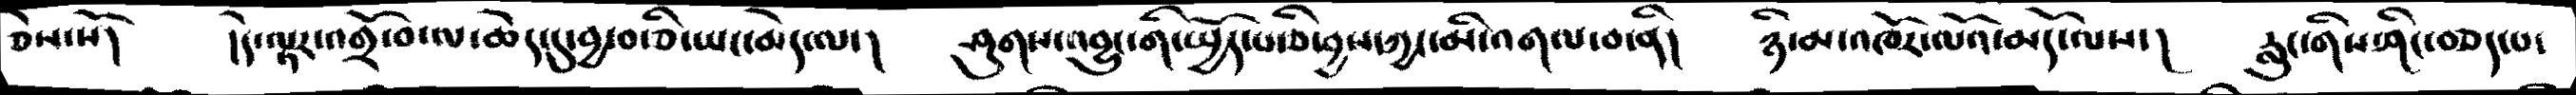ཅེས་སོ།    །དེ་ལྟར་འགྲོ་བ་ལ་ཆེད་བྱ་བ་ཅི་ཡང་མེད་ལ་།   ཤུགས་འབྱུང་གི་སྤྱོད་པ་ཅི་བྱས་ཀྱང་མི་འགལ་བ་ནི།   ཉི་མ་འཁོར་ལོའ་མདོ་ལས་།    རླུང་གིས་ཤིང་བཅད་པ་
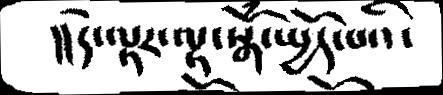།།དེ་ལྟར་ལྟ་སྒོམ་སྤྱོད་པའི་
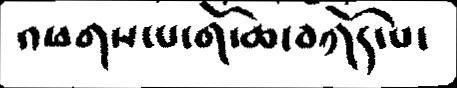འཕགས་པ་གོ་ཆ་བཀོད་པ་
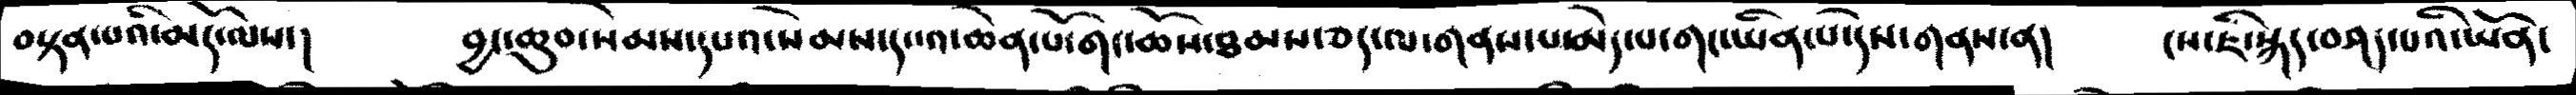བསྟན་པའི་མདོ་ལས་།      བྱང་ཆུབ་སེམས་དཔའ་སེམས་དཔའ་ཆེན་པོ་གང་ཆོས་ཐམས་ཅད་ལ་གནས་པ་མེད་པ་གང་ཡིན་པ་དེས་གནས་ན།    ངས་ཇི་སྐད་བཤད་པའི་ཡོན་
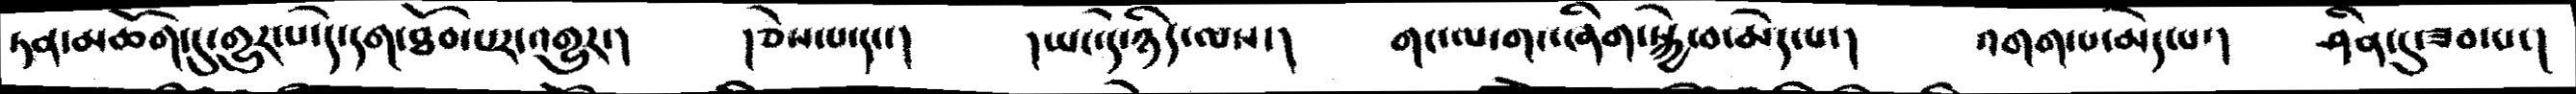ཏན་མཆོག་དུ་གྱུར་པ་དེ་དག་ཐོབ་པར་འགྱུར་།    །ཅེས་པ་དང་།   །ཡང་དེ་ཉིད་ལས་།    གང་ལ་གང་ཞིག་སྐྱེ་བ་མེད་པ་།    འགག་པ་མེད་པ་།   ཤིན་དུ་ཟབ་པ་།
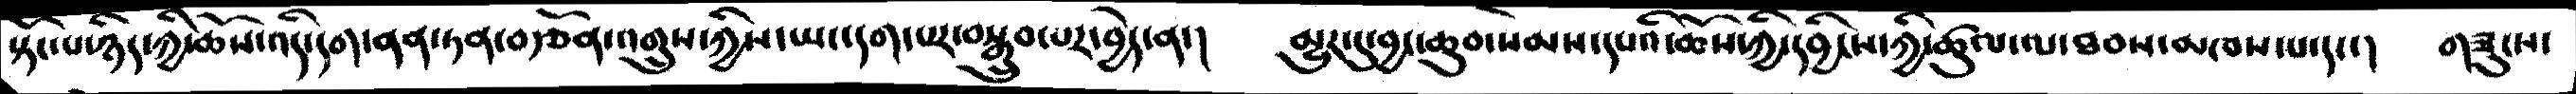སྟོང་པ་ཉིད་ཀྱི་ཆོས་འདི་དག་ནན་ཏན་བརྩོན་འགྲུས་ཀྱིས་ཡང་དག་པར་བསྒྲུབ་པར་བྱེད་ན་།   མྱུར་དུ་བྱང་ཆུབ་སེམས་དཔའི་ཆོས་ཀྱི་དབྱིངས་ཀྱི་ཚུལ་ལ་ཐབས་མཁས་པ་དང་།  གཟུངས་
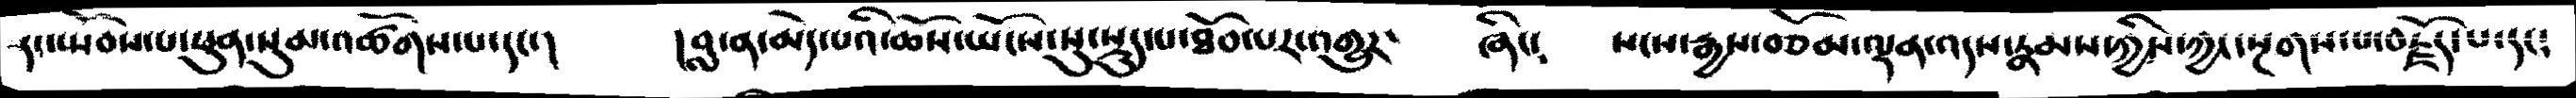དང་སྤོབས་པ་ཕུན་སུམ་འཚོགས་པ་དང་།   །བླ་ན་མེད་པའི་ཆོས་ཡོངས་སུ་སྡུད་པ་ཐོབ་པར་འགྱུར་     ཞིང་     སངས་རྒྱས་བཅོམ་ལྡན་འདས་རྣམས་ཀྱིས་ཀྱང་སྔགས་པ་བརྗོད་པ་དང༴
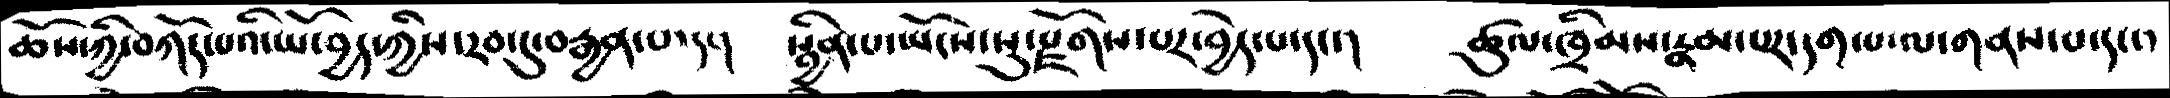ཆོས་ཀྱི་བཀོད་པའི་ཡོ་བྱེད་ཀྱིས་རབ་དུ་བརྒྱན་པ་དང་།   སྦྱིན་པ་ཡོངས་སུ་རྫོགས་པར་བྱེད་པ་དང་།    ཚུལ་ཁྲིམས་རྣམ་པར་དག་པ་ལ་གནས་པ་དང་
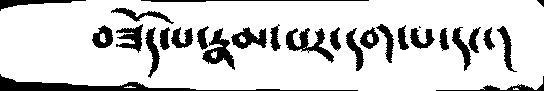བཟོད་པ་རྣམ་པར་དག་པ་དང་།
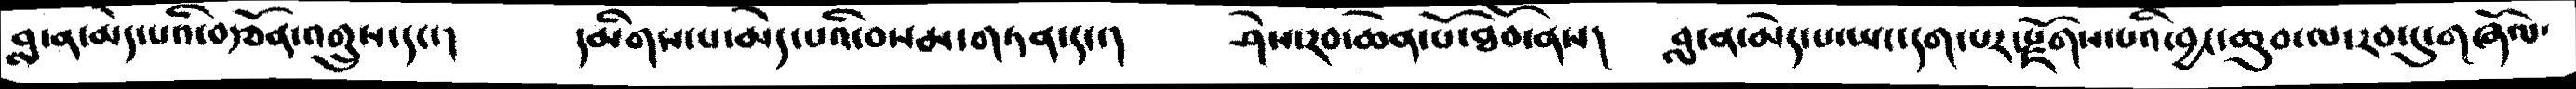བླ་ན་མེད་པའི་བརྩོན་འགྲུས་དང་།    དམིགས་པ་མེད་པའི་བསམ་གཏན་དང་།   ཤེས་རབ་ཆེན་པོ་ཐོབ་ནས།  བླ་ན་མེད་པ་ཡང་དག་པར་རྫོགས་པའི་བྱང་ཆུབ་ལ་རབ་དུ་གཞོལ་
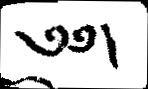༄༅།
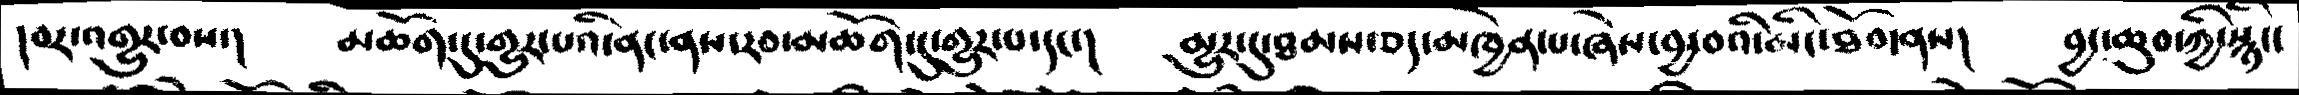།བར་འགྱུར་བས་།  མཆོག་དུ་གྱུར་པའི་ནང་ནས་རབ་མཆོག་དུ་གྱུར་པ་དང་།   མྱུར་དུ་ཐམས་ཅད་མཁྱེན་པ་ཞེས་བྱ་བའི་མི་ཐོབ་ནས།  བྱང་ཆུབ་ཀྱི་སྙིང་
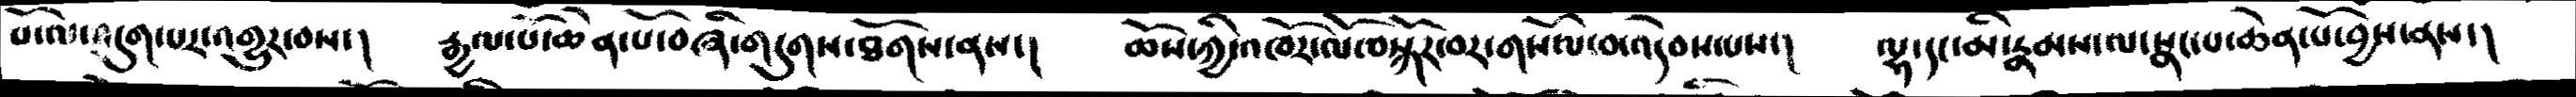པོ་ལ་འདུས་པར་འགྱུར་བས་།  རྒྱལ་པོ་ཆེན་པོ་བཞི་གདུགས་ཐོགས་ནས་།  ཆོས་ཀྱི་འཁོར་ལོ་བསྐོར་བར་གསོལ་བ་འདེབས་པས་།  ལྟ་དང་མི་རྣམས་ལ་སྣང་པ་ཆེན་པོ་བྱས་ནས་།
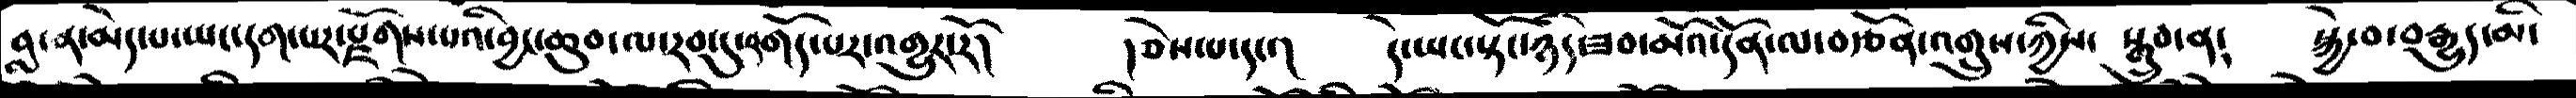བླ་ན་མེད་པ་ཡང་དག་པར་རྫོགས་པའི་བྱང་ཆུབ་ལ་རབ་དུ་དགོད་པར་འགྱུར་རོ།    །ཅེས་པ་དང་།    དེ་ཡང་སྟོང་ཉིད་ཟབ་མོའ་དོན་ལ་བརྩོན་འགྲུས་ཀྱིས་  སྒྲུབ་ན།     སྐྱེ་བ་བརྒྱུད་མི་
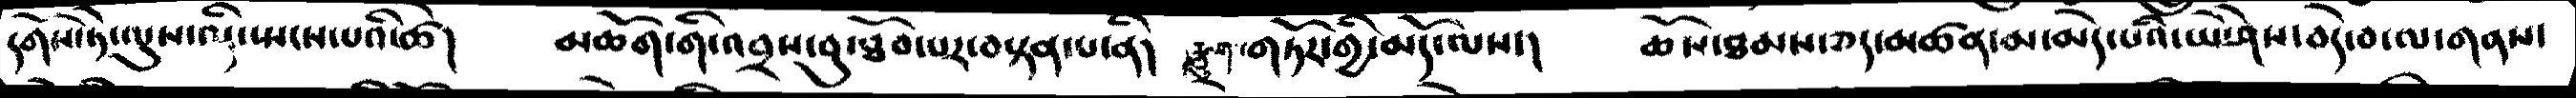དགོས་ཏེ་ལུས་འདི་སྤངས་པའི་ཚེ།  མཆོག་གི་འབྲས་་བུ་ཐོབ་པར་བསྟན་པ་ནི།   རྩུག་གཏོར་གྱ་མདོ་ལས་།   ཆོས་ཐམས་ཅད་མཚན་མ་མེད་པའི་ཡེ་ཤེས་བདེ་བ་ལ་གནས་
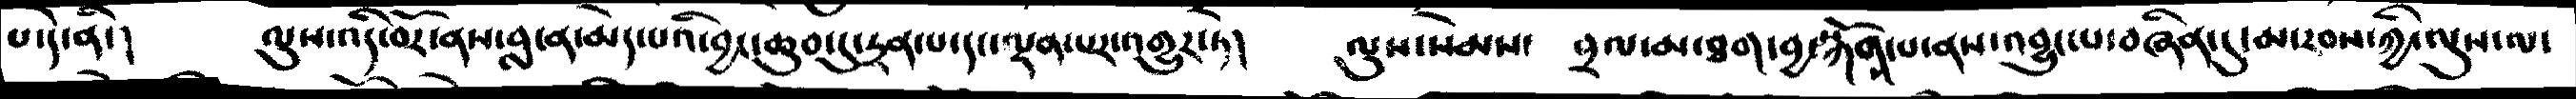པ་དེ་ནི་།   ལུས་འདི་བོར་ནས་བླ་ན་མེད་པའི་བྱང་ཆུབ་དུ་དྲན་པ་དང་ལྡན་པར་འགྱུར་ཏེ།   ལུས་སེམས་  བྲལ་མ་ཐག་བྱ་སྐོགས་པ་ནས་འབྱུང་པ་བཞིན་དུ་མ་རབས་ཀྱི་ལུས་ལ་
